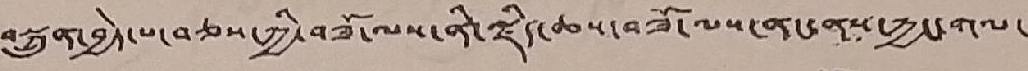བསྐྲུན་བྱེད་པ་བཅས་ཀྱི་བཟོ་ལས་ནི་ལྗིད་ཆས་བཟོ་ལས་ནང་ནས་ཀྱང་གལ་་་
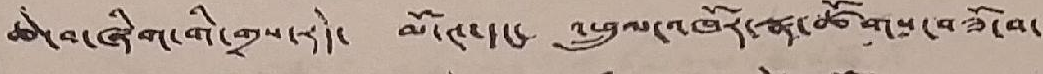ཆེ་བ་ཞིག་གི་གྲས་རེད། མོ་ཊ་དང་ འཕྲུལ་འཁོར་སྣ་ཚོགས་བཟོ་བ་་
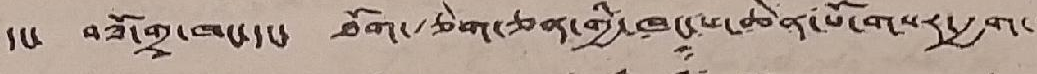དང་ བཟོ་གྲྭ་ཁང་དང་ ཐོག་རྩེག་ཅན་གྱི་ཁང་པ་ཆེན་པོ་གསར་རྒྱག་་
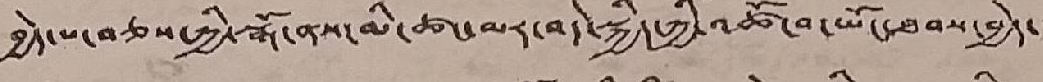བྱེད་པ་བཅས་ཀྱི་སྒོ་ནས་མི་ཚང་མར་བདེ་སྐྱིད་ཀྱི་འཚོ་བ་ཡོང་ཐབས་བྱེད་་
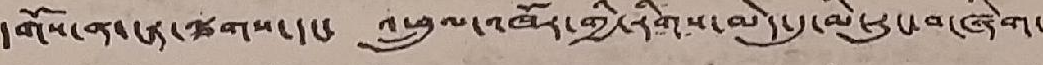དགོས་ན་ངར་ལྕགས་དང་ འཕྲུལ་འཁོར་གྱི་རིགས་མེད་དུ་མི་རུང་བ་ཞིག་
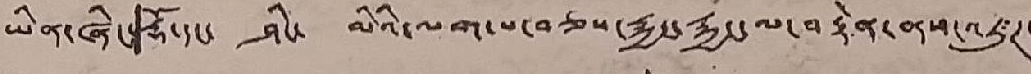ཡིན་ཞིངས་རྡོ་དང་ ཤིང་ མིའི་ལག་པ་བཅས་རྐྱང་རྐྱང་ལ་བརྟེན་ནས་འཛུཊ་
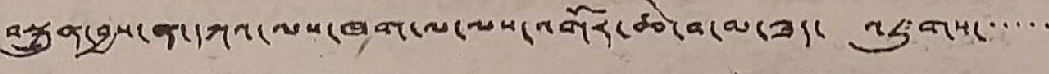བསྐྲུན་བྱས་ན་དཀའ་ལས་ཁག་ལ་ལས་འགོར་ཆེ་བ་མ་ཟད་ འཛུགས་་་་་་
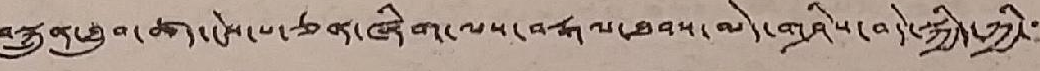བསྐྲུན་ཐུབ་ཚད་ངེས་པ་ཅན་ཞིག་ལས་བརྒལ་ཐབས་མེད་གཤིས་བདེ་སྐྱིད་ཀྱི་་
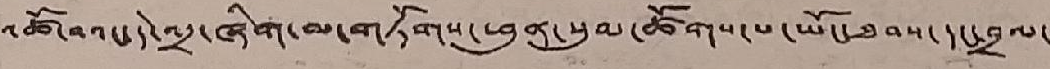འཚོ་བའང་དེ་འདྲ་ཞིག་མ་གཏོགས་ཕུན་སུམ་ཚོགས་པ་ཡོང་ཐབས་དང་བྲལ་
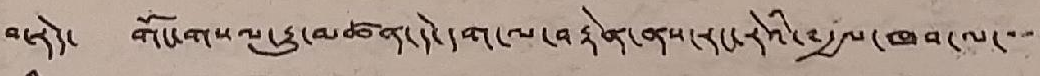བ་རེད། གོང་གསལ་རྒྱུ་མཚན་དེ་དག་ལ་བརྟེན་ནས་རང་རེའི་༸རྒྱལ་ཁབ་ལ་་་་
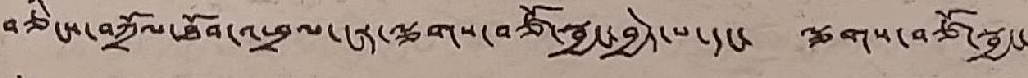བཅིངས་བཀྲོལ་ཐོབ་འཕྲལ་ངར་ལྕགས་བཅོ་སྦྱང་བྱེད་པ་དང་ ལྕགས་བཙོ་སྦྱང་་་
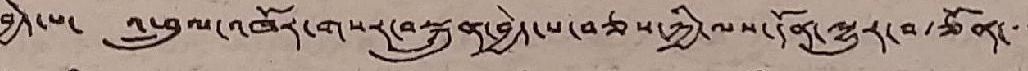བྱེད་པ་ འཕྲུལ་འཁོར་གསར་བསྐྲུན་བྱེད་པ་བཅས་ཀྱི་ལས་དོན་ལྷུར་བརྩོན་་་་
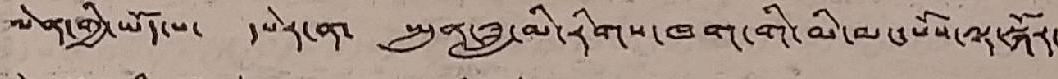ལེན་གྱི་ཡོད་པ་ དཔེར་ན་ སྤུན་ཟླ་མི་རིགས་ཁག་གི་མི་མང་པོས་ལྟ་སྐོར་
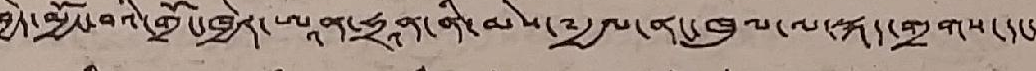བྱེད་མྱོང་བའི་གྲོང་ཁྱེར་ཨཱན་ཧྲནཱ་ནི་མེས་༸རྒྱལ་ནང་ཁུལ་ལ་སྐད་གྲགས་དང་
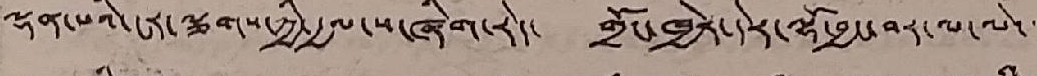ལྡན་པའི་ངར་ལྕགས་ཀྱི་རྒྱལ་ས་ཞིག་རེད་ གྲོང་ཁྱེར་དེར་ལྷོ་བྱང་བར་ལ་ལེ་་་
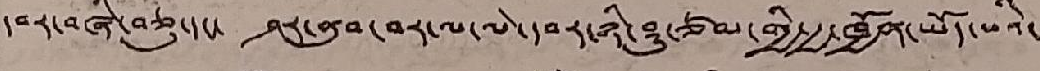དབར་བཞི་བཅུ་དང་ ཤར་ནུབ་བར་ལ་ལེ་དབར་ཉི་ཤུ་ཙམ་གྱི་རྒྱ་ཁྱོན་ཡོད་པའི་་
